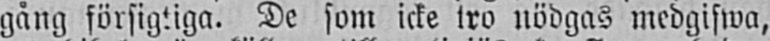gång försigtiga. De som icke tro nödgas medgifwa,
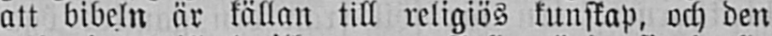att bibeln är källan till religiös kunskap, och den
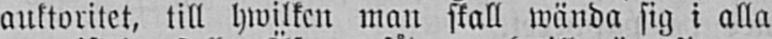auktoritet, till hwilken man skall wända sig i alla
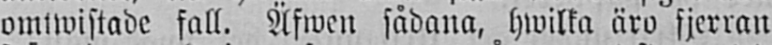omtwistade fall. Äfwen sådana, hwilka äro fjerran
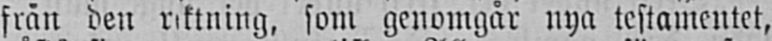från den riktning, som genomgår nya testamentet,
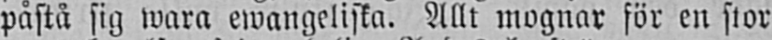påstå sig wara ewangeliska. Allt mognar för en stor
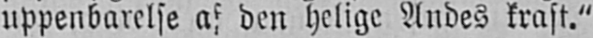uppenbarelse af den helige Andes kraft."
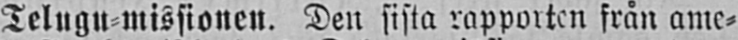Telugu-missionen. Den sista rapporten från ame-
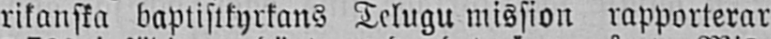rikanska baptistkyrkans Telugu mission rapporterar
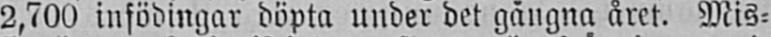2,700 infödingar döpta under det gångna året. Mis-
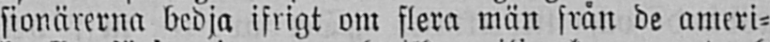sionärerna bedja ifrigt om flera män från de ameri-
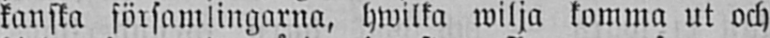kanska församlingarna, hwilka wilja komma ut och
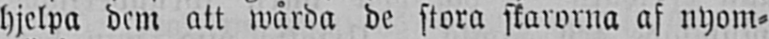hjelpa dem att wårda de stora skarorna af nyom-
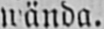wända.
